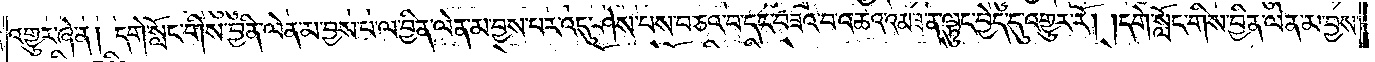འགྱུར་ཞེ་ན། དགེ་སློང་གིས་བྱིན་ལེན་མ་བྱས་པ་ལ་བྱིན་ལེན་མ་བྱས་པར་འདུ་ཤེས་པས་བཅའ་བ་དང་བཟའ་བ་འཆའ་འམ་ཟ་ན་ལྟུང་བྱེད་དུ་འགྱུར་རོ། །དགེ་སློང་གིས་བྱིན་ལེན་མ་བྱས་
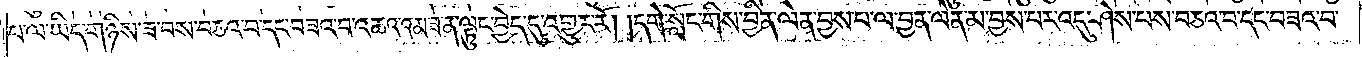པ་ལ་ཡིད་གཉིས་ཟ་བས་བཅའ་བ་དང་བཟའ་བ་འཆའམ་ཟ་ན་ལྟུང་བྱེད་དུ་འགྱུར་རོ། །དགེ་སློང་གིས་བྱིན་ལེན་བྱས་པ་ལ་བྱིན་ལེན་མ་བྱས་པར་འདུ་ཤེས་པས་བཅའ་བ་དང་བཟའ་བ་
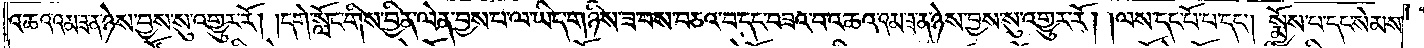འཆའ་འམ་ཟ་ན་ཉེས་བྱས་སུ་འགྱུར་རོ། །དགེ་སློང་གིས་བྱིན་ལེན་བྱས་པ་ལ་ཡིད་གཉིས་ཟ་བས་བཅའ་བ་དང་བཟའ་བ་འཆའམ་ཟ་ན་ཉེས་བྱས་སུ་འགྱུར་རོ། །ལས་དང་པོ་པ་དང༌། སྨྱོས་པ་དང་སེམས་
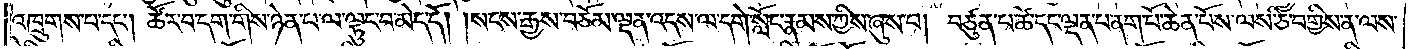འཁྲུགས་པ་དང༌། ཚོར་བ་དག་གིས་ཉེན་པ་ལ་ལྟུང་བ་མེད་དོ། །སངས་རྒྱས་བཅོམ་ལྡན་འདས་ལ་དགེ་སློང་རྣམས་ཀྱིས་ཞུས་པ། བཙུན་པ་ཚེ་དང་ལྡན་པ་ནག་པོ་ཆེན་པོས་ལས་ཅི་བགྱིས་ན་ལས་
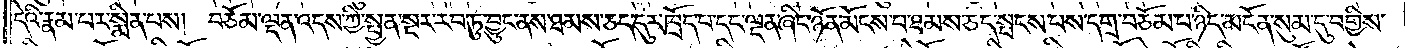དེའི་རྣམ་པར་སྨིན་པས། བཅོམ་ལྡན་འདས་ཀྱི་སྤྱན་སྔར་རབ་ཏུ་བྱུང་ནས་ཐམས་ཅད་དུར་ཁྲོད་པ་དང་ལྡན་ཞིང་ཉོན་མོངས་པ་ཐམས་ཅད་སྤངས་པས་དགྲ་བཅོམ་པ་ཉིད་མངོན་སུམ་དུ་བགྱིས་
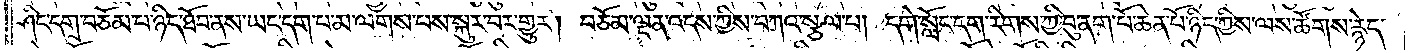ཤིང་དགྲ་བཅོམ་པ་ཉིད་ཐོབ་ནས་ཡང་དག་པ་མ་ལགས་པས་སྐུར་བར་གྱུར། བཅོམ་ལྡན་འདས་ཀྱིས་བཀའ་སྩལ་པ། དགེ་སློང་དག་རིགས་ཀྱི་བུ་ནག་པོ་ཆེན་པོ་ཉིད་ཀྱིས་ལས་ཚོགས་རྙེད་
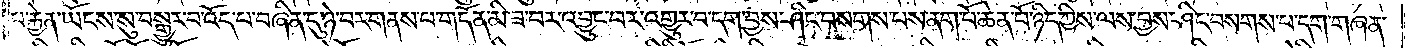པ་རྐྱེན་ཡོངས་སུ་བསྒྱུར་བ་འོད་པ་བཞིན་དུ་ཉེ་བར་གནས་པ་གདོན་མི་ཟ་བར་འབྱུང་བར་འགྱུར་བ་དག་བྱས་ཤིང་བསགས་པས་ནག་པོ་ཆེན་པོ་ཉིད་ཀྱིས་ལས་བྱས་ཤིང་བསགས་པ་དག་གཞན་
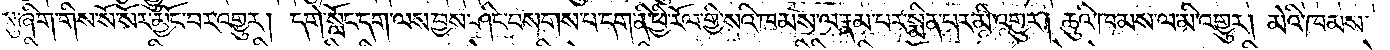སུ་ཞིག་གིས་སོ་སོར་མྱོང་བར་འགྱུར། དགེ་སློང་དག་ལས་བྱས་ཤིང་བསགས་པ་དག་ནི་ཕྱི་རོལ་གྱི་སའི་ཁམས་ལ་རྣམ་པར་སྨིན་པར་མི་འགྱུར། ཆུའི་ཁམས་ལ་མི་འགྱུར། མེའི་ཁམས་
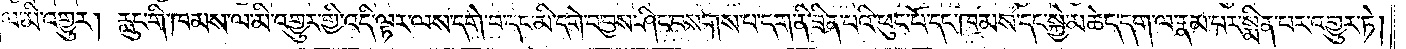ལ་མི་འགྱུར། རླུང་གི་ཁམས་ལ་མི་འགྱུར་གྱི་འདི་ལྟར་ལས་དགེ་བ་དང་མི་དགེ་བ་བྱས་ཤིང་བསགས་པ་དག་ནི་ཟིན་པའི་ཕུང་པོ་དང་ཁམས་དང་སྐྱེ་མཆེད་དག་ལ་རྣམ་པར་སྨིན་པར་འགྱུར་ཏེ།
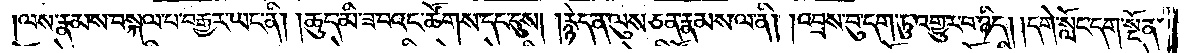ལས་རྣམས་བསྐལ་པ་བརྒྱར་ཡང་ནི། །ཆུད་མི་ཟ་བའང་ཚོགས་དང་དུས། །རྙེད་ན་ལུས་ཅན་རྣམས་ལ་ནི། །འབྲས་བུ་དག་ཏུ་འགྱུར་བ་ཉིད། །དགེ་སློང་དག་སྔོན་
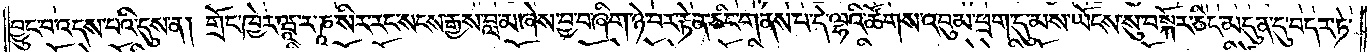བྱུང་བ་འདས་པའི་དུས་ན། གྲོང་ཁྱེར་ཝཱ་ར་ཎཱ་སིར་རང་སངས་རྒྱས་བླ་མ་ཞེས་བྱ་བ་ཞིག་ཉེ་བར་རྟེན་ཅིང་གནས་པ་དེ་ལྷའི་ཚོགས་འབུམ་ཕྲག་དུ་མས་ཡོངས་སུ་བསྐོར་ཅིང་མདུན་དུ་བདར་ཏེ་
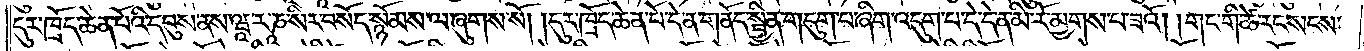དུར་ཁྲོད་ཆེན་པོའི་དབུས་ནས་ཝཱ་ར་ཎཱ་སིར་བསོད་སྙོམས་ལ་ཞུགས་སོ། །དུར་ཁྲོད་ཆེན་པོ་དེ་ན་གནོད་སྦྱིན་གདུག་པ་ཞིག་འདུག་པ་དེ་དེ་ན་མི་རོ་མྱགས་པ་ཟའོ། །གང་གི་ཚེ་རང་སངས་
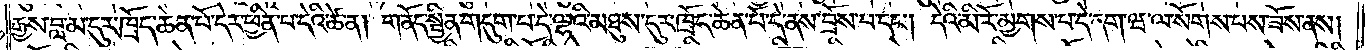རྒྱས་བླ་མ་དུར་ཁྲོད་ཆེན་པོ་དེར་ཕྱིན་པ་དེའི་ཚེ་ན། གནོད་སྦྱིན་གདུག་པ་དེ་ལྷའི་མཐུས་དུར་ཁྲོད་ཆེན་པོ་དེ་ནས་བྲོས་པ་དང༌། དེའི་མི་རོ་མྱགས་པ་དེ་དག་ཝ་ལ་སོགས་པས་ཟོས་ནས།
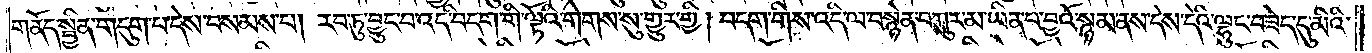གནོད་སྦྱིན་གདུག་པ་དེས་བསམས་པ། རབ་ཏུ་བྱུང་བ་འདི་བདག་གི་ལྟོའི་གེགས་སུ་གྱུར་གྱི། བདག་གིས་འདི་ལ་བསྙེན་བཀུར་མ་ཡིན་པ་བྱའོ་སྙམ་ནས་དེས་དེའི་ལྷུང་བཟེད་དུ་མིའི་
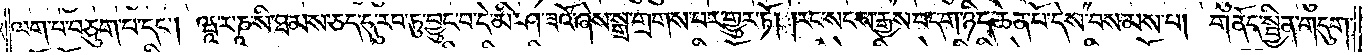ལག་པ་བཅུག་པ་དང༌། ཝཱ་ར་ཎཱ་སི་ཐམས་ཅད་དུ་རབ་ཏུ་བྱུང་བ་དེ་མི་ཤ་ཟའོ་ཞེས་སྒྲ་གྲགས་པར་གྱུར་ཏོ། །རང་སངས་རྒྱས་བདག་ཉིད་ཆེན་པོ་དེས་བསམས་པ། གནོད་སྦྱིན་གདུག་
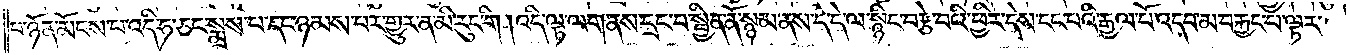པ་ཉོན་མོངས་པ་འདི་ཧ་ཅང་སྨྲས་པ་དང་ཉམས་པར་གྱུར་ན་མི་རུང་གི། འདི་ལྟ་ལག་ནས་དྲང་བ་སྦྱིན་ནོ་སྙམ་ནས་དེ་དེ་ལ་སྙིང་བརྩེ་བའི་ཕྱིར་དེས་ངང་པའི་རྒྱལ་པོ་འདབ་མ་བརྐྱང་པ་ལྟར་
